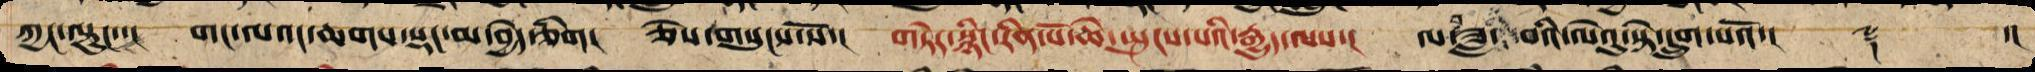ཀྱང་ལྟུང་་།   གང་ལའང་ཆགས་སྡང་མ་བྱེད་ཅིག།    ཅེས་གསུངས་སོ།   གཏེར་སྙིང་རིན་པོ་ཆེ་སྤུངས་པའི་རྒྱུད་ལས་།   ལ་བཟླའ་བའི་ལེའུ་སྟེ་དྲུག་པའོ་།།   ༈ ་།།
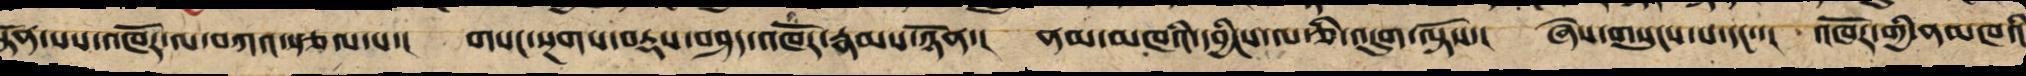སྟོན་པས་འཁོར་ལ་བཀའ་སྩལ་པ་།   གསང་སྔགས་བརྡས་བཤད་འཁོར་རྣམས་ཉོན་།   ནམ་མཁའི་དབྱིངས་ལ་ཅི་འདུག་ལྟོས་།   ཞེས་གསུངས་པ་དང་་།    འཁོར་གྱི་ནམཁའི
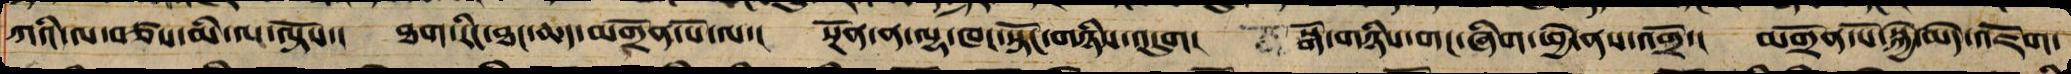ཀའི་ལ་བཙས་མི་ལ་ལྟོས་། ཐག་རིང་ཐང་ཆད་མགྲོན་པོ་ལ་། སྔོན་ན་ལྷ་ཁང་སྟོང་གཉིས་འདུག། སྒོ་གཉིས་གང་ཞིག་ཕྱེ་ནས་འགྲོ་། མགྲོན་པོ་སྐྱེ་མེད་འཇོག་
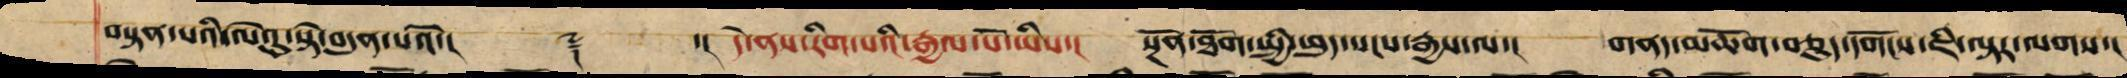བསྟན་པའི་ལེའུ་སྟེ་བདུན་པའོ་།། ༈ ་། དེ་ནས་རིག་པའི་རྒྱལ་པོ་ཡིས་། སྔོན་ཐོག་སྤྱི་ཕུད་སངས་རྒྱས་ལ་། གནད་མཆོག་བཅུད་དགོངས་ཇི་ལྟར་ལགས་།
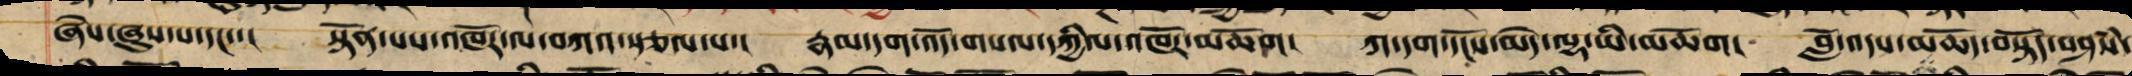ཞེས་ཞུས་པ་དང་་། སྟོན་པས་འཁོར་ལ་བཀའ་སྩལ་པ་། རྣམ་དག་འོད་གསལ་དཀྱིལ་འཁོར་མཆོག། ཀ་དག་དངོས་མེད་ལྷ་ཡི་མཆོག། བློ་འདས་མཆོད་བསྟོད་བཤཾས་
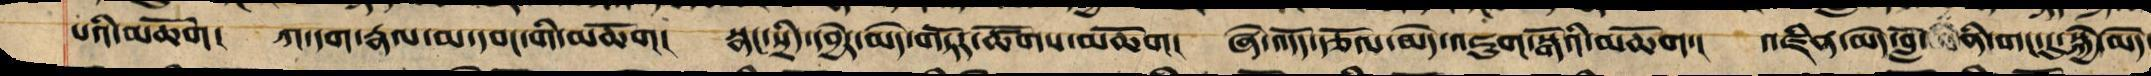པའི་མཆོག། ཀ་དག་རྣལ་མ་དབང་གི་མཆོག། སྣང་སྲིད་དབྱེར་མེད་གཏོར་ཚོགས་མཆོག། ཞེ་འདོད་རྩོལ་མེད་འཇུག་སྒོའི་མཆོག་། འཛིན་མེད་བློ་ ནི་གང་དུ་སྐྱེ་མེད་
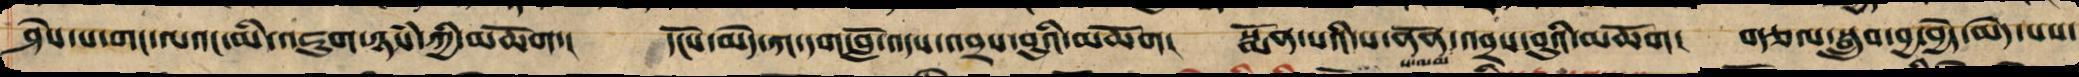ཤེས་པ་གང་ལའང་མི་འཇུག་ཉམས་ཀྱི་མཆོག །དངོས་མེད་ཀ་དག་བློ་འདས་འབྲས་བུའི་མཆོག །སྨོན་པའི་ས་ནོན་ས་ལམ་འབྲས་བུའི་མཆོག །བཙལ་བསྒྲུབ་བྱ་བྱེད་མེད་པས་
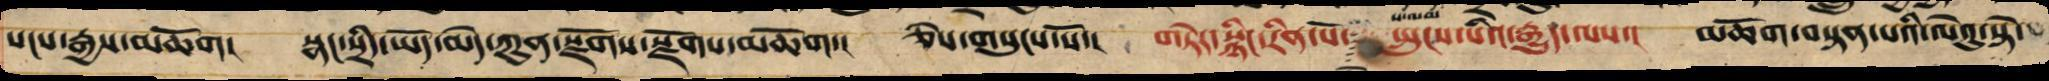སངས་རྒྱས་མཆོག་   སྣང་སྲིད་ཡོད་མེད་ཀུན་སྡོབས་སྡོགས་མཆོག་། ཅེས་གསུངས་སོ་    གཏེར་སྙིང་རིན་པོ་སྤུངས་པའི་རྒྱུད་ལས་།   མཆོག་བསྟན་པའི་ལེའུ་སྟེ་
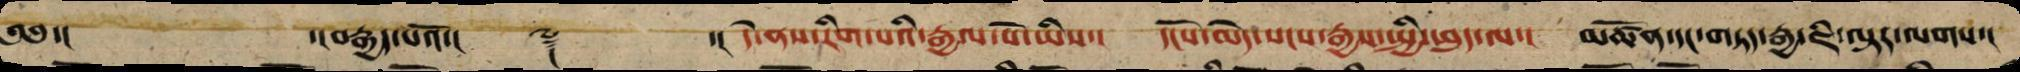༄༅་། ་།བརྒྱད་པའོ་།། ༈ ་། དེ་ནས་རིག་པའི་རྒྱལ་པོ་ཡིས་། དངོས་མེད་སངས་རྒྱས་སྤྱི་ཕུད་ལ་། མཚོན་དང་གཏད་རྒྱ་ཇི་ལྟར་ལགས་།
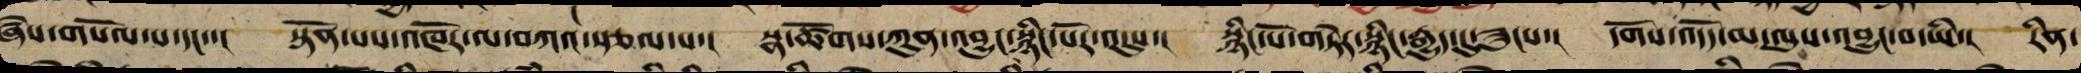ཞེས་གསོལ་པ་དང་་། སྟོན་པས་འཁོར་ལ་བཀའ་སྩལ་པ་། སྣ་ཚོགས་ཀུན་འབྱུང་སྙིང་པོར་འདུས་། སྙིང་པོ་གཏེར་སྙིང་རྒྱུད་དུ་ཟུངས་། དགོས་འདོད་མ་ལུས་འབྱུང་བ་ཡི་། རིན་
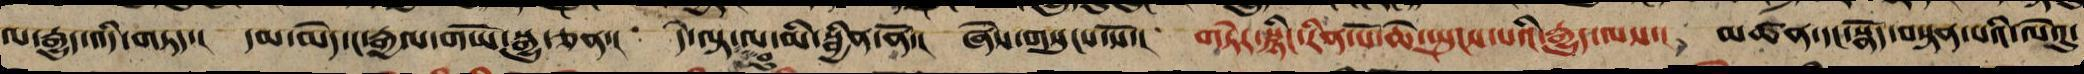ལ་རྒྱུད་འདི་གཏད། །དམ་མེད་ང་རྒྱལ་གཡོ་སྒྱུ་ཅན། །དེ་ལྟ་བུ་ལ་མི་སྦྱིན་ནོ། །ཞེས་གསུངས་སོ། །གཏེར་སྙིང་རིན་ཆེན་སྤུངས་པའི་རྒྱུད་ལས། མཚན་དང་སྣོད་བསྟན་པའི་ལེའུ་
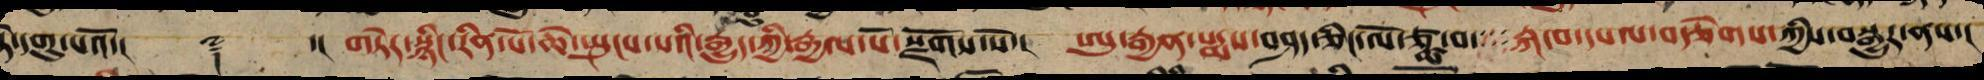སྟེ་དགུ་པའོ་།། ༈ ་། གཏེར་སྙིང་རིན་པོ་ཆེ་སྤུངས་པའི་རྒྱུད་ཀྱི་རྒྱལ་པོ་རྫོགས་སོ་།། ཨུ་རྒྱན་པདྨས་བཤད་ཅིང་ལོཙྪ་བ་ རྐ་བ་དཔལ་བརྩེགས་ཀྱིས་བསྒྱུར་ནས་།
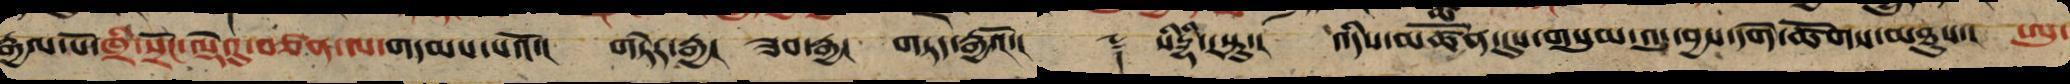རྒྱལ་པོ་ཁྲི་སྲོང་ལྡེའུ་བཙན་ལ་གདམས་པའོ།། ༈ །།གཏེར་རྒྱ། ཟབ་རྒྱ། གཏད་རྒྱ་ལོ།། ༈ སིདྡྷི་རསྟུ། འདིས་མཚོན་དུས་གསུམ་འདུ་བྱས་དགེ་ཚོགས་མཐུས། །ཨུ་
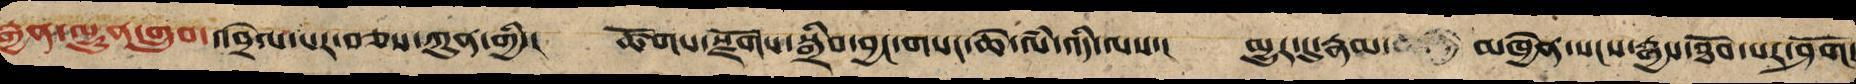རྒྱན་ལྷུན་གྲུབ་འབྲེལ་པར་བཅས་ཀུན་གྱི་། ཚོགས་རྫོགས་སྒྲིབ་བྱང་གསང་ཆེ་ལཾ་འདི་ལས་། མྱུར་དུ་རྣམ་ མཁྱེན་སངས་རྒྱས་ཐོབ་པར་ཤོག་
